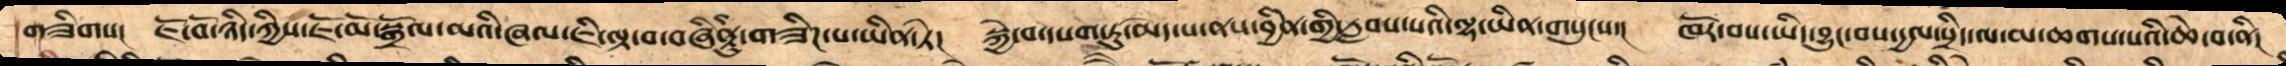གཟིགས།   ཇོ་བོ་ཉིད་ཀྱིས་ཇོ་མོ་སྒྲོལ་མའི་ཞལ་ཇི་ལྟ་བ་བཞིནུ་གཟིཌ་པ་ཡིན་ཏེ།    སྐྱེ་བ་དཔག་ཏུ་མེད་པ་ནས་བྱིན་གྱི་རླབས་པའི་ལྷ་ཡིན་གསུངས་།   ཁོར་བས་ཡིད་བྱུང་བས་དྱལ་སྲིད་ལ་མ་ཆགས་པའི་ཆེ་བ་ནི།
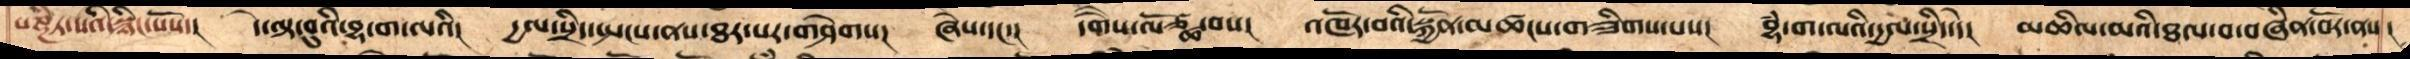པཎྜིཏ་སའི་སྙིང་པོས་།    དེ་ལྟ་བུའི་བྷ་ག་ལའི།   དྱལ་སྲིད་སྤངས་ནས་ཐར་པར་གཤེགས།   ཞེས་དང་།   དགེཻས་ལོཙྪ་བས།   འཁོར་བའི་སྐྱོན་མཚངས་གཟིགས་པས།   བྷཾ་ག་ལའི་དྱལ་སྲིད་དེ།   མཆིལ་མའི་ཐལ་བ་བཞིན་བོར་ནས།
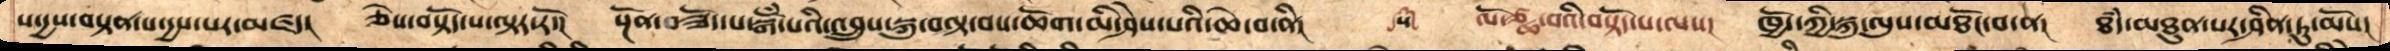ས་དྱས་བསྟན་པ་དྱས་པར་མཛད།    ཅེས་བསྟོད་པ་ལྟར་རོ།    སྔོན་བཟོད་པ་བསྒོཾ་པའི་འབྲུས་སྐུ་བལྟ་བས་ཆོག་མི་ཤེས་པའི་ཆེ་བ་ནི།   ༼༥༽   ལོ་ཙྪ་བའི་བསྟོད་པ་ལས།    ཁྱོད་ཀྱི་སྐུ་ལུས་མཐོང་བ་ན།    ཐཾད་མཐུན་པར་ཤིན་ཏུ་མོས།
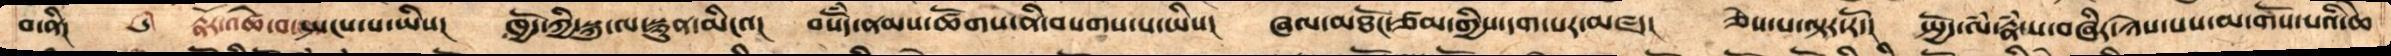བ་ནི། ༼༦༽  རྣཾར་འཚེ་བ་སྤངས་པ་ཡིས།   ཁྱོད་ཀྱི་སྐུ་ལ་སྙུན་མིངའ།    བསོཾད་ནམས་ཚོགས་ནི་བསགས་པ་ཡིས།   ཞལ་མཐོང་ཙམ་གྱིས་དག་པར་མཛད།   ཅེས་པ་ལྟར་རོ།   སྤྱོད་ལཾ་རྣཾ་པ་བཞིར་ཉེས་པས་མ་གོས་པའི་ཆེ
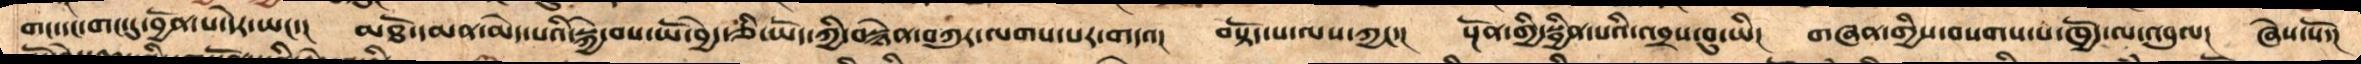གང་དང་གང་དུ་བྱོན་པ་དེར་ཡང་།   མཐོ་དམན་མེད་པའི་སྐྱེ་བས་ཡོ་བྱད་ཅི་ཡོད་ཀྱི་བསྙེན་བཀུར་ལགས་པར་གདའ།  བསྟོད་པ་ལས་ཀྱང་།  སྔོན་གྱི་སྦྱིན་པའི་འབྲས་བུ་ཡི།  གཞན་གྱིས་བསགས་པ་ཁྱོད་ལ་འབུལ། ཞེས་སོ་།
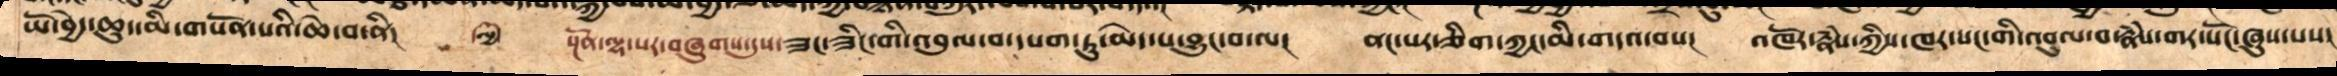ཡོ་བྱེད་ཆུད་མི་གསོན་པའི་ཆེ་བ་ནི།  ༼༧༽ སྔོན་ལྷ་སར་བཞུགས་དུས་ཟང་ཟིང་གི་འབུལ་བ་དཔག་ཏུ་མེད་པ་བྱུང་བ་ལ།   ནང་པར་གཅིག་ཀྱང་མི་གདའ་བས།   འཁོར་རྣཾས་ཀྱིས་ཁར་སང་གི་འབུལ་བ་རྣཾས་གར་སོང་ཞུས་པས།
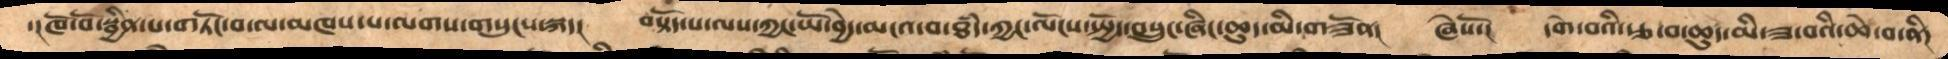་།ཁོ་བོ་སྦྱིན་པ་གཏོང་བ་ལ་མཁས་པ་ལགས་གསུངས་སྐད།   བསྟོད་པ་ལས་ཀྱང་ཡོ་བྱེད་མངའ་བ་ཐཾད་ཀྱང་ལོངས་སྤྱོད་བསྲུང་ཞིང་ཆུད་མི་གཟོན།  ཞེསོ་།  དགེ་བའི་རྩ་བ་ཆུད་མི་ཟ་བའི་ཆེ་བ་ནི།
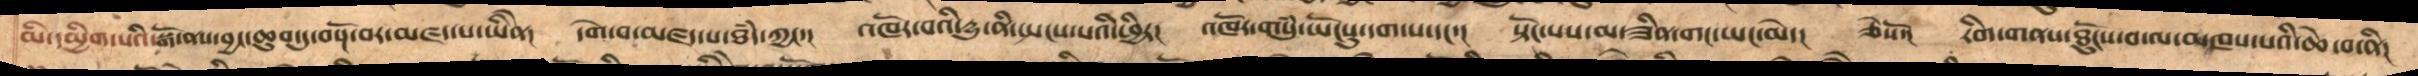མི་དམྱིག་པའི་སྒོ་ནས་བྱང་ཆུབ་ཏུ་བསྔོ་བར་མཛད་པ་ཡིནེ།   དགེ་བ་མཛད་པ་ཐཾད་ཀྱང་།  འཁོར་བའི་དྱུ་ནི་སྤངས་པའི་ཕྱིར།  འཁོར་གསུཾ་ཡོངསུ་དག་པ་དང་།  སྟོང་པས་མ་ཟིན་གང་ཡང་མེད།  ཅེསོ།  རིག་གནས་ཐོུངས་བ་ལ་མཁས་པའི་ཆེ་བ་ནི།
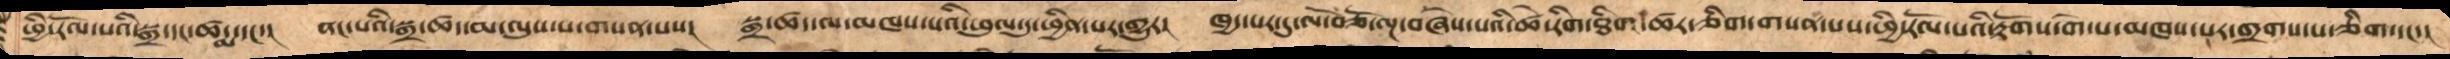ཕྱི་རོལ་པའི་སྒྲ་དང་ཚདྨ་དང་།   ནང་པའི་སྒྲ་ཚད་མ་ལུས་པར་གསན་པས།   སྒྲ་ཚད་ལ་མཁས་པའི་ཕུལ་དུ་ཕྱིན་པར་གྱུར།  ཁྱད་པར་དུ་ལོ་བཅོ་ལྔ་བཞེས་པའི་ཚེ་རིག་ཐིག་ཚར་ཅིག་གསན་པས་ཕྱི་རོལ་པའི་རྟོགས་གེ་པ་མཁས་པར་གྲགས་པ་ཅིག་དང་།
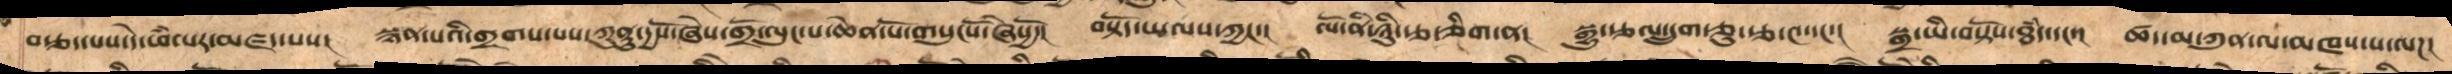བརྩད་པས་དེ་ཕཾ་པར་མཛད་པས།  སྙན་པའི་གྲགས་པས་ཀུནུ་དྱསོ་ཞེས་གྲོ་ལུང་པ་ཆེན་པོ་གསུངསོ་ཞེསྱོ་།   བསྟོད་པ་ལས་ཀྱང་།   ལོ་ནི་ཉིུརྩ་གཅིག་ན།   སྒྱུ་རྩལ་དྲུག་ཅུ་རྩ་༤་དང་།   སྒྲ་ཡི་བསྟོས་ཐཾད་དང་།  ཚད་མ་ཀུན་ལ་མཁས་པ་ལཌ།
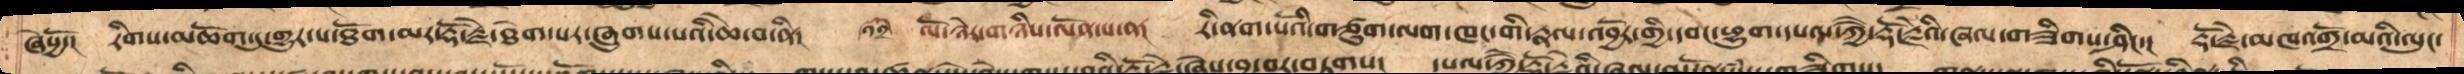ཞེསྱོ་།  རིགས་མཆོག་དུ་གྱུར་པ་ཐོག་མར་རྡོ་རྗེ་ཐེག་པར་ཞུགས་པའི་ཆེ་བ་ནི། ༼༡༢༽ ལོ་ཉེར་གཉིས་ལོན་པ་ན། རི་ནག་པོའི་གཙུག་ལག་ཁང་གི་རྣལ་འབྱོར་གྱི་དབང་ཕྱུག་དཔལ་ཀྱཻ་རྡོ་རྗེའི་ཞལ་གཟིགས་ཤིང་། རྡོ་རྗེ་མཁའགྲོ་མའི་ལུང་
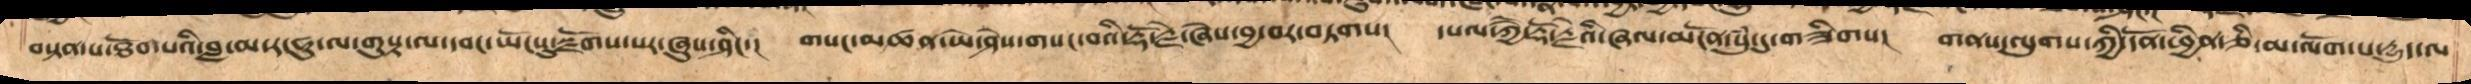བསྟན་པ་ཐོབ་པའི་བླ་མ་ར་ཧུ་ལ་གུཔྟ་ལ་དབང་ཡོངསུ་སྫོགས་པར་ཞུས་ཤིང་།   གསང་མཚན་ཡེ་ཤེས་གསང་བའི་རྡོ་རྗེ་ཞེས་བྱ་བར་བཏགས།  དཔལ་ཀྱཻ་རྡོ་རྗེའི་ཞལ་མངོན་སུཾ་དུ་གཟིགས།  གནས་ལུགས་ཀྱི་དོན་ཕྱིན་ཅི་མ་ལོག་པ་དྱུད་ལ
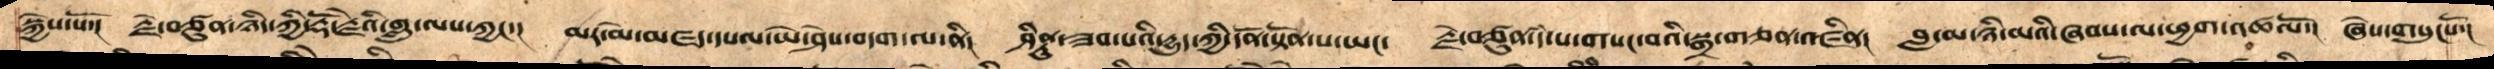སྐྱེས་སོ་།   རྗེ་བཙུན་ཉིད་ཀྱི་རྡོ་རྗེའི་གླུ་ལས་ཀྱང་།  མར་མེ་མཛད་དཔལ་ཡེ་ཤེས་བདག་ལ་ནི།  ཤིནྟུ་ཟབ་པའི་དྱུད་ཀྱི་དོན་སྟོན་པ་ཡང་  རྗེ་བཙུན་དཾ་པ་གསང་བའི་སྒྲ་གཅན་འཛིན།   བླ་མ་ཉི་མའི་ཞབས་ལ་ཕྱག་འཚལ་ལོ།  ཞེས་གསུངསོ་།
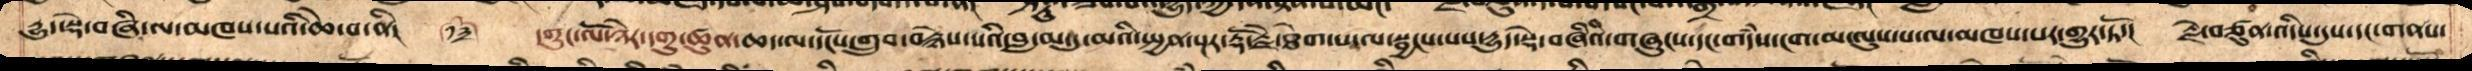དྱུད་སྡེ་བཞི་ལ་མཁས་པའི་ཆེ་བ་ནི། ༼༡༣༽ དགུང་ལོ་ཉེར་དགུ་ཚུན་ཆད་ལ་དངོས་གྲུབ་བརྙེས་པའི་བླ་མ་དུ་མའི་སྤྱན་སྔར་རྡོ་རྗེ་ཐེག་པ་ལ་སྦྱངས་པས་དྱུད་སྡེ་བཞིའི་གཞུང་དང་གདཾས་ངག་མ་ལུས་པ་ལ་མཁས་པར་གྱུར་ཏོ་། རྗེ་བཙུན་འདིས་དུས་དང་གནས་
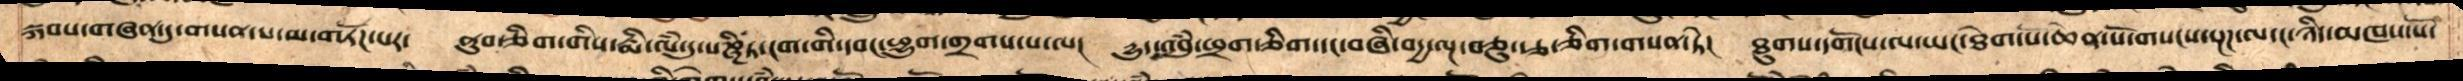སྐབས་གཞན་དུ་གསན་པ་མ་གཏོཌ་པར་  ནུབ་ཅིག་གིས་རྨི་ལཾ་དུ་པཎྜིཏ་ངག་གི་དབང་ཕྱུག་གྲགས་པ་ལ།  དྱུད་འབུཾ་ཕྲག་ཅིག་དང་བཞི་བདྱ་ལྔ་བཅུ་རྩ་ཅིག་གསན་ཏེ།   ཐུགས་དགོངས་ལ་ཡང་ཐེག་པ་ཆེན་པོ་གསང་སྔཌ་ལ་ང་ཉིད་མཁས་སོ་
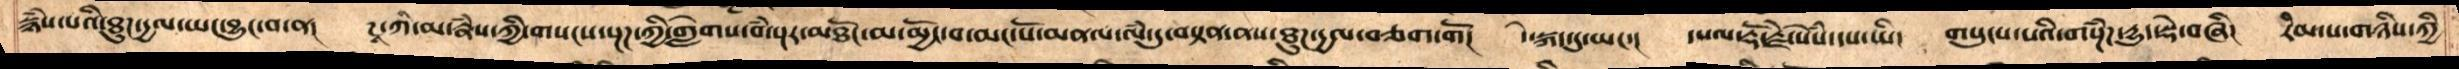སྙཾས་པའི་ཐུཌ་དྱལ་ཡང་བྱུང་བ་ན།   ཌཱ་ཀི་མ་རྣཾས་ཀྱི་གསངས་སྔཌ་ཀྱི་གླེགས་བཾ་སྔར་མཐོང་མ་མྱོང་བ་མང་པོ་མནལ་ལཾ་དུ་བསྟན་ནས་ཐུཌ་དྱལ་བཅག་གོ།   དེ་སྐད་དུ་ཡང་།   དཔལ་ལྡན་རྡོ་རྗེ་སེཾས་དཔ་ཡི།  གསུངས་པའི་གསྔཾཌ་དྱུད་སྡེ་བཞི། རིམ་པ་གཉིས་ཀྱི
